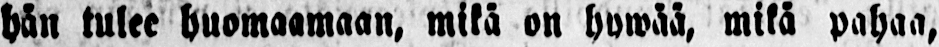hän tulee huomaamaan, mikä on hywää, mikä pahaa,
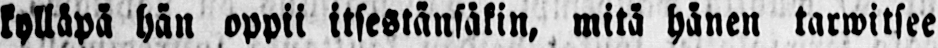kylläpä hän oppii itsestänsäkin, mitä hänen tarwitsee
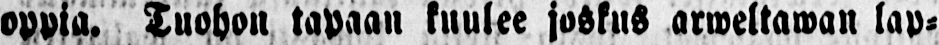oppia. Tuohon tapaan kuulee joskus arweltawan lap-
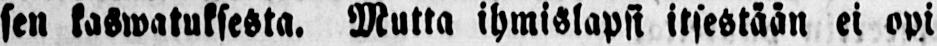sen kaswatuksesta. Mutta ihmislapsi itsestään ei opi
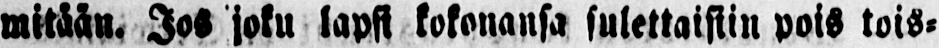mitään. Jos joku lapsi kokonansa sulettaisiin pois tois-
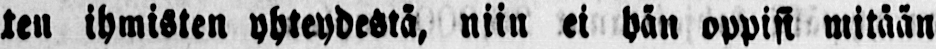ten ihmisten yhteydestä, niin et hän oppisi mitään
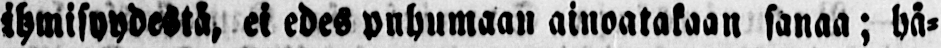Ihmisyydestä, ei edes puhumaan ainoatakaan sanaa; hä-
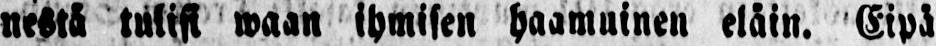nestä tulisi waan ihmisen haamuinen eläin. Eipä
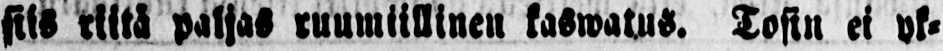siis riitä paljas ruumiillinen kaswatus. Tosin ei yk-
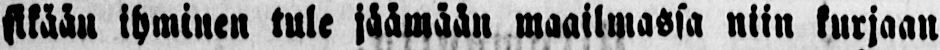sikään ihminen tule jäämään maailmassa niin kurjaan
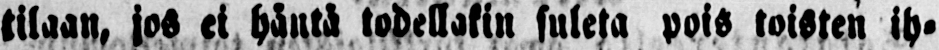tilaan, jos ei häntä todellakin suleta pois toisten ih-
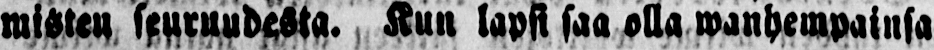misten seuruudesta. Kun lapsi saa olla wanhempainsa
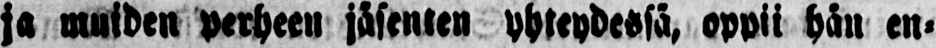ja muiden perheen jäsenten yhteydessä, oppii hän en-
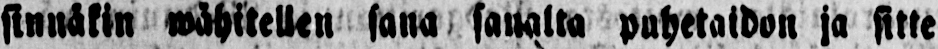sinnäkin wähitellen sana sanalta puhetaidon ja sitte
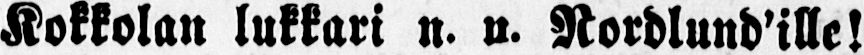Kokkolan lukkari n. n. Nordlund’ille!
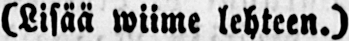(Lisää wiime lehteen.)
